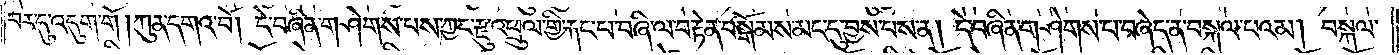བར་དུ་འདུག་གོ །ཀུན་དགའ་བོ། དེ་བཞིན་གཤེགས་པས་ཀྱང་རྫུ་འཕྲུལ་གྱི་རྐང་པ་བཞི་ལ་བརྟེན་བསྒོམས་མང་དུ་བྱས་པས་ན། དེ་བཞིན་གཤེགས་པ་བཞེད་ན་བསྐལ་པའམ། བསྐལ་
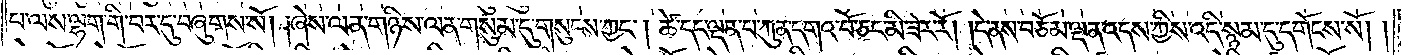པ་ལས་ལྷག་གི་བར་དུ་བཞུགས་སོ། །ཞེས་ལན་གཉིས་ལན་གསུམ་དུ་གསུངས་ཀྱང༌། ཚེ་དང་ལྡན་པ་ཀུན་དགའ་བོ་ཅང་མི་ཟེར་རོ། །དེ་ནས་བཅོམ་ལྡན་འདས་ཀྱིས་འདི་སྙམ་དུ་དགོངས་སོ། །
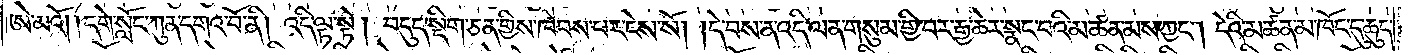ཨེ་མའོ། །དགེ་སློང་ཀུན་དགའ་བོ་ནི། འདི་ལྟ་སྟེ། བདུད་སྡིག་ཅན་གྱིས་ཁེབས་པར་ངེས་སོ། །དེ་བས་ན་འདི་ལན་གསུམ་གྱི་བར་རྒྱ་ཆེར་སྣང་བའི་མཚན་མས་ཀྱང༌། དེའི་མཚན་མ་ཁོང་དུ་ཆུད་
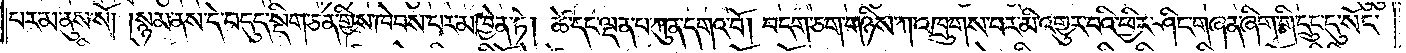པར་མ་ནུས་སོ། །སྙམ་ནས་དེ་བདུད་སྡིག་ཅན་གྱིས་ཁེབས་པར་མཁྱེན་ཏེ། ཚེ་དང་ལྡན་པ་ཀུན་དགའ་བོ། བདག་ཅག་གཉིས་ཀ་འཁྲུགས་པར་མི་འགྱུར་བའི་ཕྱིར་ཤིང་གཞན་ཞིག་གི་དྲུང་དུ་སོང་
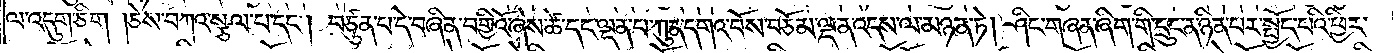ལ་འདུག་ཅིག །ཅེས་བཀའ་སྩལ་པ་དང༌། བཙུན་པ་དེ་བཞིན་བགྱིའོ་ཞེས་ཚེ་དང་ལྡན་པ་ཀུན་དགའ་བོས་བཅོམ་ལྡན་འདས་ལ་མཉན་ཏེ། ཤིང་གཞན་ཞིག་གི་དྲུང་ན་ཉིན་པར་སྤྱོད་པའི་ཕྱིར་
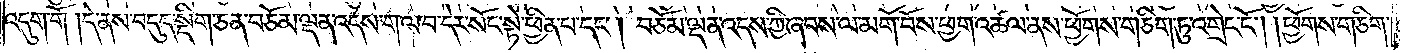འདུག་གོ །དེ་ནས་བདུད་སྡིག་ཅན་བཅོམ་ལྡན་འདས་ག་ལ་བ་དེར་སོང་སྟེ་ཕྱིན་པ་དང༌། བཅོམ་ལྡན་འདས་ཀྱི་ཞབས་ལ་མགོ་བོས་ཕྱག་འཚལ་ནས་ཕྱོགས་གཅིག་ཏུ་འགྲེང་ངོ༌། །ཕྱོགས་གཅིག་
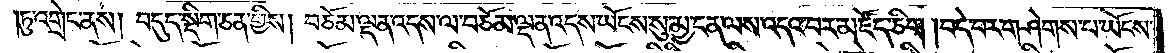ཏུ་འགྲེང་ནས། བདུད་སྡིག་ཅན་གྱིས། བཅོམ་ལྡན་འདས་ལ་བཅོམ་ལྡན་འདས་ཡོངས་སུ་མྱ་ངན་ལས་འདའ་བར་མཛོད་ཅིག །བདེ་བར་གཤེགས་པ་ཡོངས་
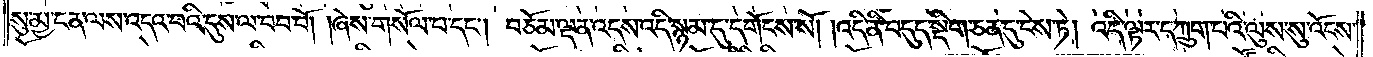སུ་མྱ་ངན་ལས་འདའ་བའི་དུས་ལ་བབ་བོ། །ཞེས་གསོལ་པ་དང༌། བཅོམ་ལྡན་འདས་འདི་སྙམ་དུ་དགོངས་སོ། །འདི་ནི་བདུད་སྡིག་ཅན་དུ་ངེས་ཏེ། འདི་ལྟར་དཀྲུག་པའི་ལུས་སུ་འོངས་
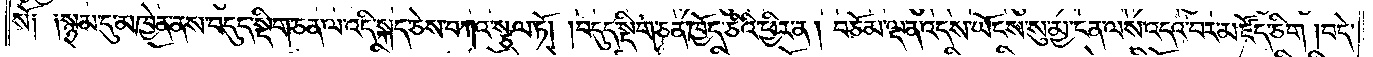སོ༑ ༑སྙམ་དུ་མཁྱེན་ནས་བདུད་སྡིག་ཅན་ལ་འདི་སྐད་ཅེས་བཀའ་སྩལ་ཏོ། །བདུད་སྡིག་ཅན་ཁྱོད་ཅིའི་ཕྱིར་ན། བཅོམ་ལྡན་འདས་ཡོངས་སུ་མྱ་ངན་ལས་འདའ་བར་མཛོད་ཅིག །བདེ་
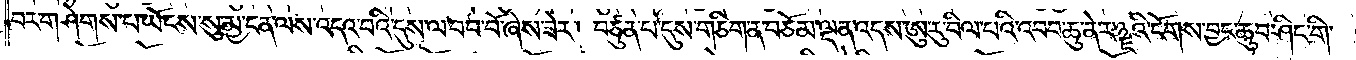བར་གཤེགས་པ་ཡོངས་སུ་མྱ་ངན་ལས་འདའ་བའི་དུས་ལ་བབ་བོ་ཞེས་ཟེར། བཙུན་པ་དུས་གཅིག་ན་བཅོམ་ལྡན་འདས་ཨུ་རུ་བིལ་པའི་འབབ་ཆུ་ནེ་ར་ཉྫའི་ངོགས་བྱང་ཆུབ་ཤིང་གི་
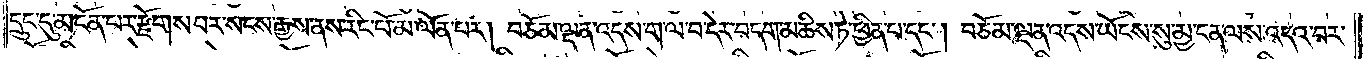དྲུང་དུ་མངོན་པར་རྫོགས་པར་སངས་རྒྱས་ནས་རིང་པོ་མ་ལོན་པར། བཅོམ་ལྡན་འདས་ག་ལ་བ་དེར་བདག་མཆིས་ཏེ་ཕྱིན་པ་དང༌། བཅོམ་ལྡན་འདས་ཡོངས་སུ་མྱ་ངན་ལས་འདའ་བར་
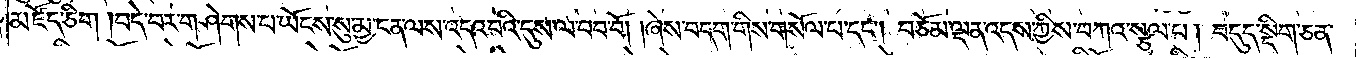མཛོད་ཅིག །བདེ་བར་གཤེགས་པ་ཡོངས་སུ་མྱ་ངན་ལས་འདའ་བའི་དུས་ལ་བབ་བོ། །ཞེས་བདག་གིས་གསོལ་པ་དང༌། བཅོམ་ལྡན་འདས་ཀྱིས་བཀའ་སྩལ་པ། བདུད་སྡིག་ཅན་
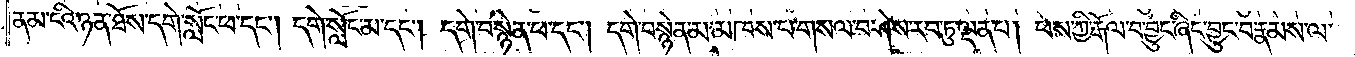ནམ་ངའི་ཉན་ཐོས་དགེ་སློང་ཕ་དང༌། དགེ་སློང་མ་དང༌། དགེ་བསྙེན་ཕ་དང༌། དགེ་བསྙེན་མ་མཁས་པ་གསལ་བ་ཤེས་རབ་ཏུ་ལྡན་པ། ཕས་ཀྱི་རྒོལ་བ་བྱུང་ཞིང་བྱུང་བ་རྣམས་ལ་
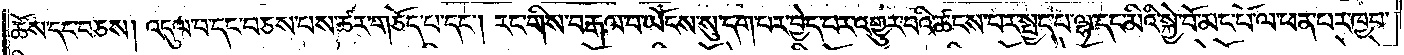ཆོས་དང་བཅས། འདུལ་བ་དང་བཅས་པས་ཚར་གཅོད་པ་དང༌། རང་གིས་བརྒལ་བ་ཡོངས་སུ་དག་པར་བྱེད་པར་འགྱུར་བའི་ཚངས་པར་སྤྱད་པ་ལྷ་དང་མིའི་སྐྱེ་བོ་མང་པོ་ལ་ཕན་པར་ཁྱབ་
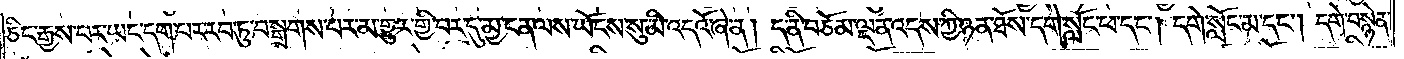ཅིང་རྒྱས་པར་ཡང་དག་པར་རབ་ཏུ་བསྒྲགས་པར་མ་གྱུར་གྱི་བར་དུ་མྱ་ངན་ལས་ཡོངས་སུ་མི་འདའོ་ཞེ་ན། ད་ནི་བཅོམ་ལྡན་འདས་ཀྱི་ཉན་ཐོས་དགེ་སློང་ཕ་དང༌། དགེ་སློང་མ་དང༌། དགེ་བསྙེན་
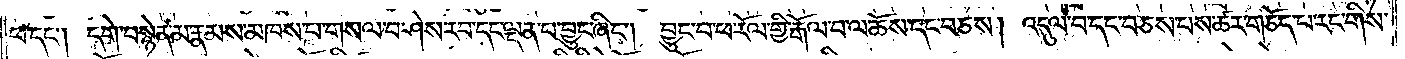ཕ་དང༌། དགེ་བསྙེན་མ་རྣམས་མཁས་པ་གསལ་བ་ཤེས་རབ་དང་ལྡན་པ་བྱུང་ཞིང༌། བྱུང་བ་ཕ་རོལ་གྱི་རྒོལ་བ་ལ་ཆོས་དང་བཅས། འདུལ་བ་དང་བཅས་པས་ཚར་གཅོད་པ་རང་གིས་
